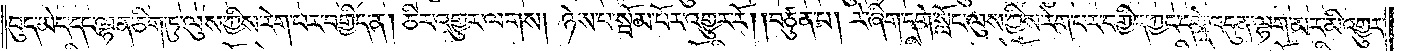བུད་མེད་དང་ལྷན་ཅིག་ཏུ་ལུས་ཀྱིས་རེག་པར་བགྱིད་ན། ཅིར་འགྱུར་ལགས། ཉེས་པ་སྦོམ་པོར་འགྱུར་རོ། །བཙུན་པ། རེ་ཞིག་དགེ་སློང་ལུས་ཀྱིས་རེག་པར་བགྱིད་ཀྱང་དགེ་འདུན་ལྷག་མར་མི་འགྱུར་
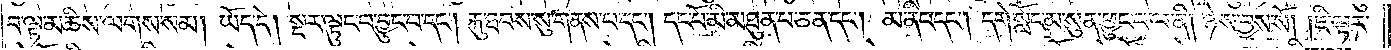བ་ལྟ་མཆིས་ལགས་སམ། ཡོད་དེ། སྔར་ལྟུང་བ་བྱུང་བ་དང༌། རྐུ་ཐབས་སུ་གནས་པ་དང༌། དང་པོ་མི་མཐུན་པ་ཅན་དང༌། མ་ནིང་དང༌། དགེ་སློང་མ་སུན་ཕྱུང་བ་ལ་ནི། ཉེས་བྱས་སོ། །ཇི་ལྟར་
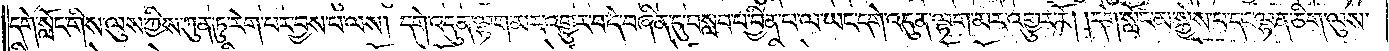དགེ་སློང་གིས་ལུས་ཀྱིས་ཀུན་ཏུ་རེག་པར་བྱས་པ་ལས། དགེ་འདུན་ལྷག་མར་འགྱུར་བ་དེ་བཞིན་དུ་བསླབ་པ་བྱིན་པ་ལ་ཡང་དགེ་འདུན་ལྷག་མར་འགྱུར་རོ། །དགེ་སློང་མ་སྐྱེས་པ་དང་ལྷན་ཅིག་ལུས་
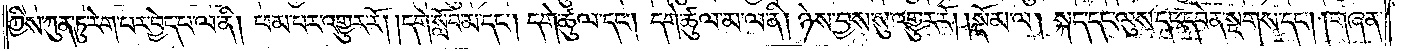ཀྱིས་ཀུན་ཏུ་རེག་པར་བྱེད་པ་ལ་ནི། ཕམ་པར་འགྱུར་རོ། །དགེ་སློབ་མ་དང༌། དགེ་ཚུལ་དང༌། དགེ་ཚུལ་མ་ལ་ནི། ཉེས་བྱས་སུ་འགྱུར་རོ།    །སྡོམ་ལ། སྐད་དང་ལུས་དང་དབེན་སྔགས་དང༌། གཞན་
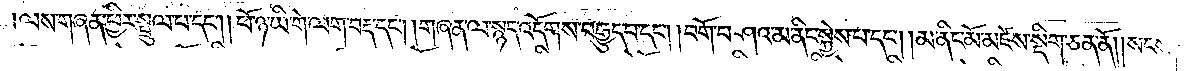ལས་གཞན་ཕྱིར་སྤྲུལ་པ་དང༌། །ཕོ་ཉ་ཡི་གེ་ལག་བརྡ་དང༌། །གཞན་ལ་སྙད་འདོགས་བརྒྱུད་པ་དང༌། །བགོ་བཤའ་མ་ནིང་སྐྱེས་པ་དང༌། །མ་ནིང་མོ་མཛེས་སྡིག་ཅན་ནོ། །སངས་
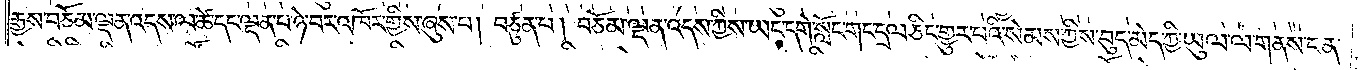རྒྱས་བཅོམ་ལྡན་འདས་ལ་ཚེ་དང་ལྡན་པ་ཉེ་བར་འཁོར་གྱིས་ཞུས་པ། བཙུན་པ། བཅོམ་ལྡན་འདས་ཀྱིས་ཡང་དགེ་སློང་གང་དྲལ་ཅིང་གྱུར་པའི་སེམས་ཀྱིས་བུད་མེད་ཀྱི་ཡུལ་ལ་གནས་ངན་
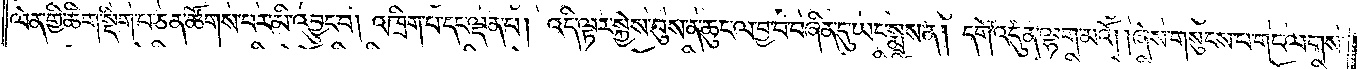ལེན་གྱི་ཚིག་སྡིག་པ་ཅན་ཚོགས་པར་མི་འབྱུང་བ། འཁྲིག་པ་དང་ལྡན་པ། འདི་ལྟར་སྐྱེས་བུས་ན་ཆུང་ལ་བྱ་བ་བཞིན་དུ་ཡང་སྨྲས་ན། དགེ་འདུན་ལྷག་མའོ། །ཞེས་གསུངས་པ་གང་ལགས་
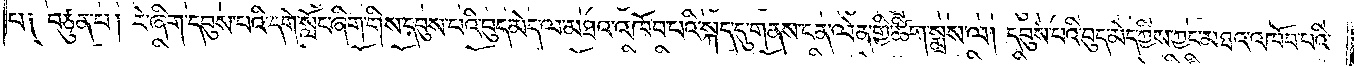པ། བཙུན་པ། རེ་ཞིག་དབུས་པའི་དགེ་སློང་ཞིག་གིས་དབུས་པའི་བུད་མེད་ལ་མཐའ་འཁོབ་པའི་སྐད་དུ་གནས་ངན་ལེན་གྱི་ཚིག་སྨྲས་ལ། དབུས་པའི་བུད་མེད་ཀྱིས་ཀྱང་མཐའ་འཁོབ་པའི་
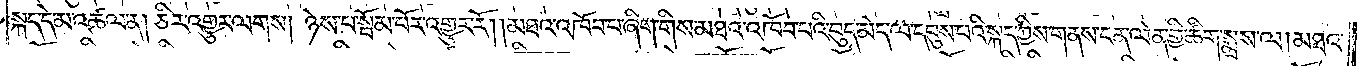སྐད་དེ་མ་འཚལ་ན། ཅིར་འགྱུར་ལགས། ཉེས་པ་སྦོམ་པོར་འགྱུར་རོ། །མཐའ་འཁོབ་པ་ཞིག་གིས་མཐའ་འཁོབ་པའི་བུད་མེད་ལ་དབུས་པའི་སྐད་ཀྱིས་གནས་ངན་ལེན་གྱི་ཚིག་སྨྲས་ལ། མཐའ་
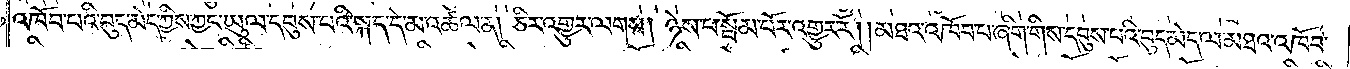འཁོབ་པའི་བུད་མེད་ཀྱིས་ཀྱང་ཡུལ་དབུས་པའི་སྐད་དེ་མ་འཚལ་ན། ཅིར་འགྱུར་ལགས། ཉེས་པ་སྦོམ་པོར་འགྱུར་རོ། །མཐའ་འཁོབ་པ་ཞིག་གིས་དབུས་པའི་བུད་མེད་ལ་མཐའ་འཁོབ་
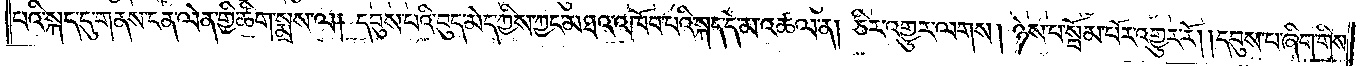པའི་སྐད་དུ་གནས་ངན་ལེན་གྱི་ཚིག་སྨྲས་ལ། དབུས་པའི་བུད་མེད་ཀྱིས་ཀྱང་མཐའ་འཁོབ་པའི་སྐད་དེ་མ་འཚལ་ན། ཅིར་འགྱུར་ལགས། ཉེས་པ་སྦོམ་པོར་འགྱུར་རོ། །དབུས་པ་ཞིག་གིས་
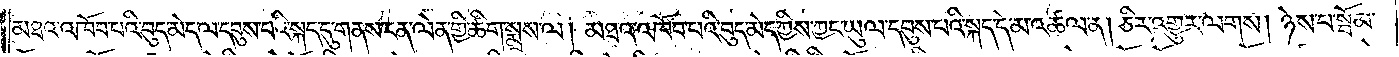མཐའ་འཁོབ་པའི་བུད་མེད་ལ་དབུས་པའི་སྐད་དུ་གནས་ངན་ལེན་གྱི་ཚིག་སྨྲས་ལ། མཐའ་འཁོབ་པའི་བུད་མེད་ཀྱིས་ཀྱང་ཡུལ་དབུས་པའི་སྐད་དེ་མ་འཚལ་ན། ཅིར་འགྱུར་ལགས། ཉེས་པ་སྦོམ་
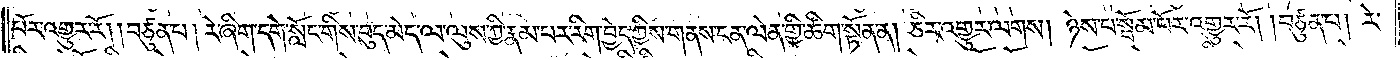པོར་འགྱུར་རོ། །བཙུན་པ། རེ་ཞིག་དགེ་སློང་གིས་བུད་མེད་ལ་ལུས་ཀྱི་རྣམ་པར་རིག་བྱེད་ཀྱིས་གནས་ངན་ལེན་གྱི་ཚིག་སྟོན་ན། ཅིར་འགྱུར་ལགས། ཉེས་པ་སྦོམ་པོར་འགྱུར་རོ། །བཙུན་པ། རེ་
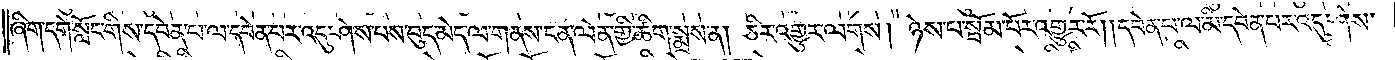ཞིག་དགེ་སློང་གིས་དབེན་པ་ལ་དབེན་པར་འདུ་ཤེས་པས་བུད་མེད་ལ་གནས་ངན་ལེན་གྱི་ཚིག་སྨྲས་ན། ཅིར་འགྱུར་ལགས། ཉེས་པ་སྦོམ་པོར་འགྱུར་རོ། །དབེན་པ་ལ་མི་དབེན་པར་འདུ་ཤེས་
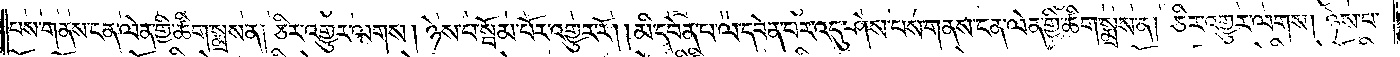པས་གནས་ངན་ལེན་གྱི་ཚིག་སྨྲས་ན། ཅིར་འགྱུར་ལགས། ཉེས་པ་སྦོམ་པོར་འགྱུར་རོ། །མི་དབེན་པ་ལ་དབེན་པར་འདུ་ཤེས་པས་གནས་ངན་ལེན་གྱི་ཚིག་སྨྲས་ན། ཅིར་འགྱུར་ལགས། ཉེས་པ་
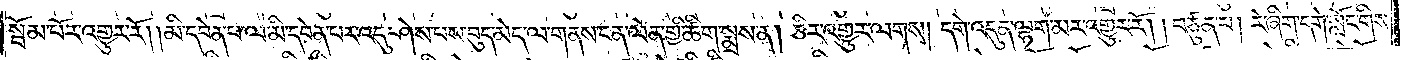སྦོམ་པོར་འགྱུར་རོ། །མི་དབེན་པ་ལ་མི་དབེན་པར་འདུ་ཤེས་པས་བུད་མེད་ལ་གནས་ངན་ལེན་གྱི་ཚིག་སྨྲས་ན། ཅིར་འགྱུར་ལགས། དགེ་འདུན་ལྷག་མར་འགྱུར་རོ། །བཙུན་པ། རེ་ཞིག་དགེ་སློང་གིས་
